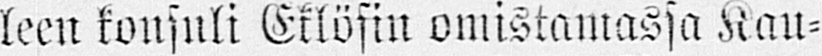leen konsuli Eklöfin omistamassa Kau-
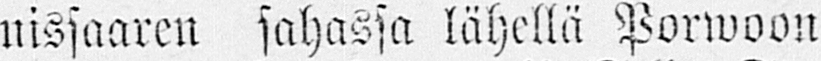nissaaren sahassa lähellä Porwoon
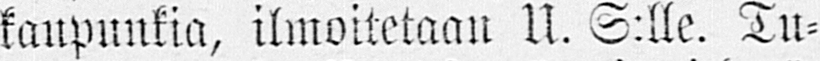kaupunkia, ilmoitetaan U. S:lle. Tu-
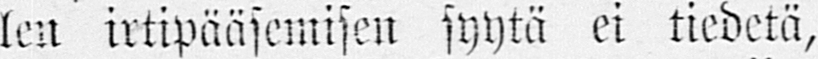len irtipääsemisen syytä ei tiedetä,
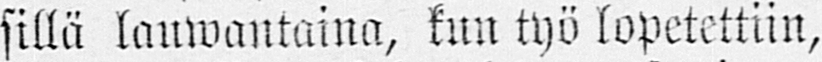sillä lauwantaina, kun työ lopetettiin,
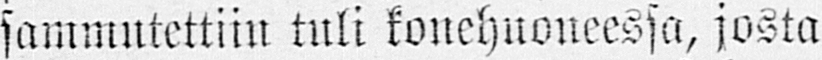sammutettiin tuli konehuoneessa, josta
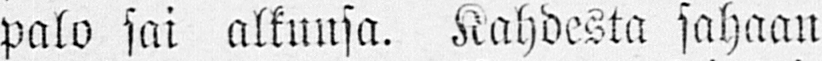palo sai alkunsa. Kahdesta sahaan
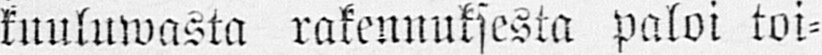kuuluwasta rakennuksesta paloi toi-
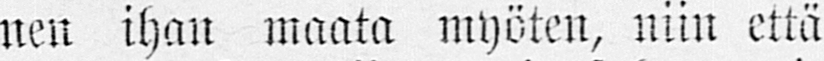nen ihan maata myöten, niin että
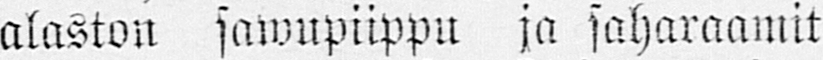alaston sawupiippu ja saharaamit
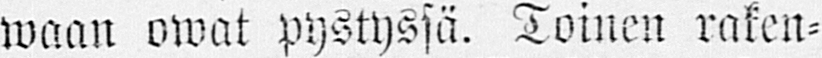waan owat pystyssä. Toinen raken-
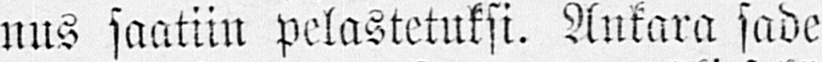nus saatiin pelastetuksi. Ankara sade
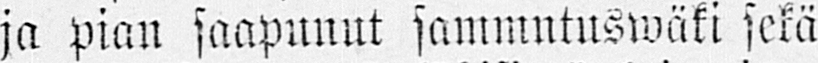ja pian saapunut sammntuswäki sekä
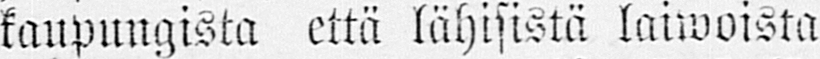kaupungista että lähisistä laiwoista
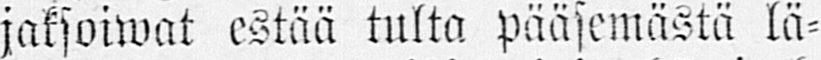jaksoiwat estää tulta pääsemästä lä-
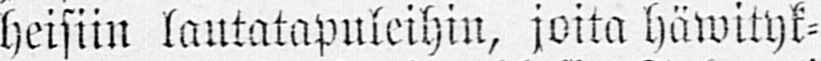heisiin lautatapuleihin, joita häwityk-
